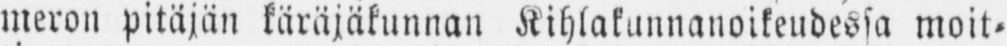meron pitäjän käräjäkunnan Kihlakunnanoikeudessa moit-
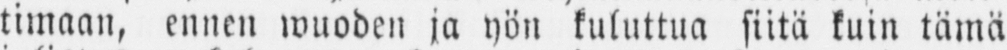timaan, ennen wuoden ja yön kuluttua siitä kuin tämä
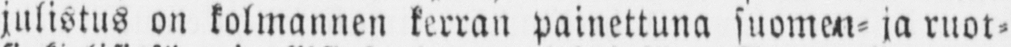julistus on kolmannen kerran painettuna suomen-ja ruot-
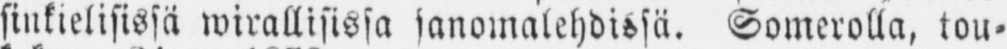sinkielisissä wirallisissa sanomalehdissä. Somerolla, tou-
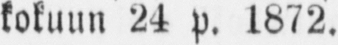kokuun 24 p. 1872.
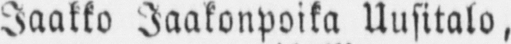Jaakko Jaakonpoika Uusitalo,
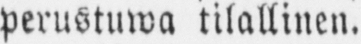perustuwa tilallinen.
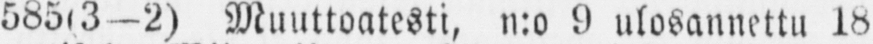585(3—2) Muuttoatesti, n:o 9 ulosannettu 1811/961
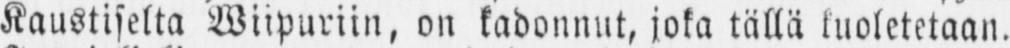Kaustiselta Viipuriin, on kadonnut, joka tällä kuoletetaan.
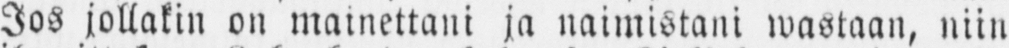Jos jollakin on mainettani ja naimistani wastaan, niin
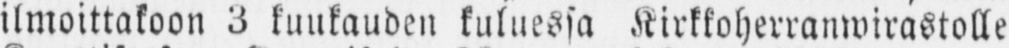ilmoittakoon 3 kuukauden kuluessa Kirkkoherranwirastolle
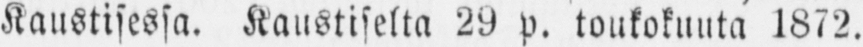Kaustisessa. Kaustiselta 29 p. toukokuuta 1872.
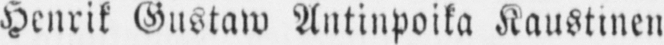Henrik Gustaw Antinpoika Kaustinen
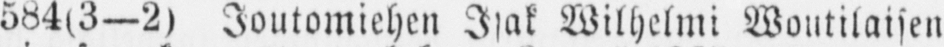564(3—2) Joutomiehen Isak Wilhelmi Woutilaisen
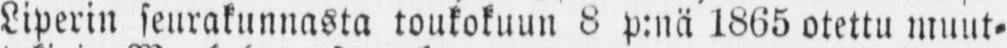Liperin seurakunnasta toukokuun 8 p:nä 1865 otettu muut-
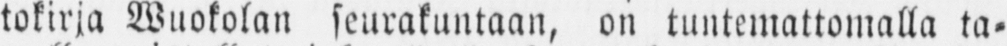tokirja Wuokolan seurakuntaan, on tuntemattomalla ta-
